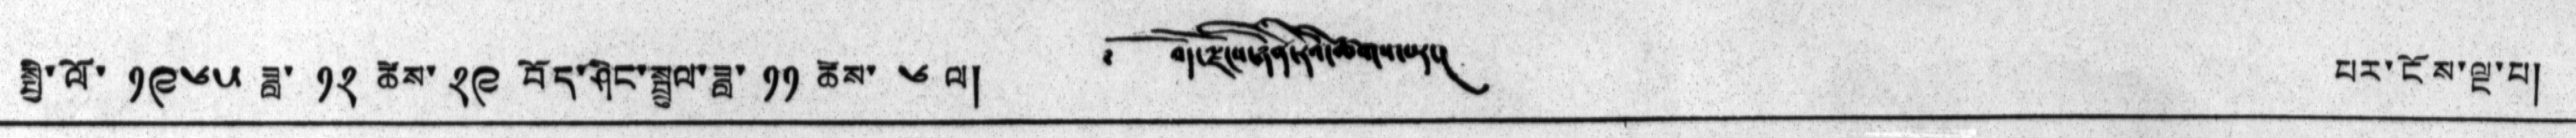སྤྱི་ལོ་ ༡༩༦༥ ཟླ་ ༡༢ ཚེས་ ༢༩ བོད་ཤིང་སྦྲུལ་ཟླ་ ༡༡ ཚེས་ ༦ ལ། ༄༅། བོད་ལྗོངས་ཉིན་རེའི་ཚགས་པར། པར་ངོས་ལྔ་པ།
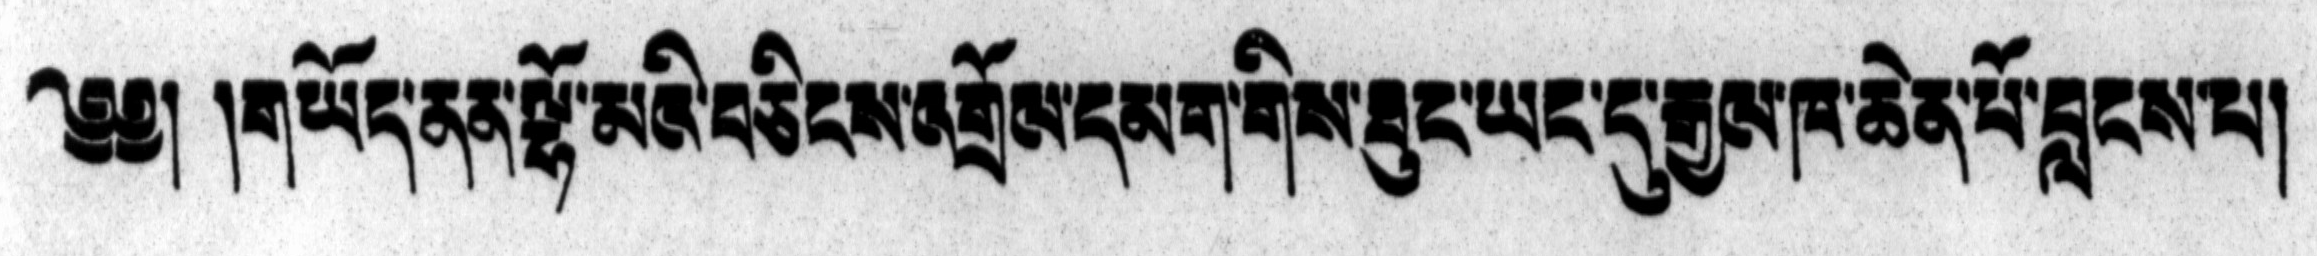༄༅། །གཡོད་ནན་ལྷོ་མའི་བཅིངས་འགྲོལ་དམག་གིས་ཐུང་ཡང་དུ་རྒྱས་ཁ་ཆེན་པོ་བླངས་པ།
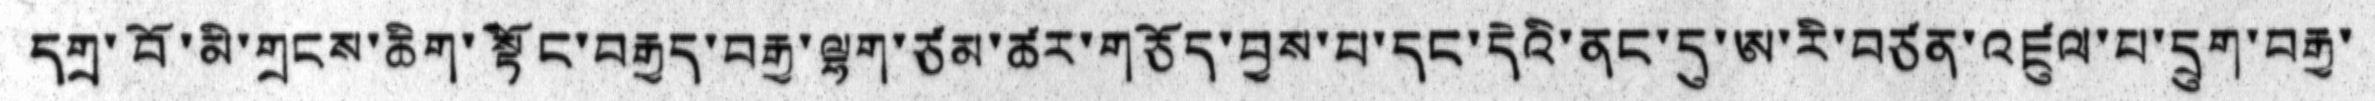དགྲ་བོ་མི་གྲངས་ཆིག་སྟོང་བརྒྱད་བརྒྱ་ལྷག་ཙམ་ཚར་གཅོད་བྱས་པ་དང་དེའི་ནང་དུ་ཨ་རི་བཙན་འཛུལ་པ་དྲུག་བརྒྱ་
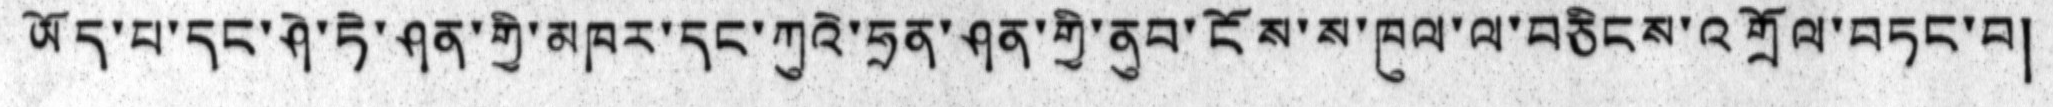ཡོད་པ་དང་ཤེ་ཏེ་ཤན་གྱི་མཁར་དང་ཀུའེ་ཧྲན་ཤན་གྱི་ནུབ་ངོས་ས་ཁུལ་ལ་བཅིངས་འགྲོལ་བཏང་བ།
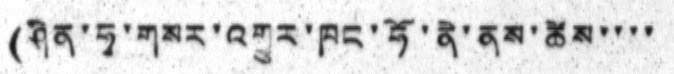(ཤིན་ཧྭ་གསར་འགྱུར་ཁང་ཧོ་ནེ་ནས་ཚེས་་་་
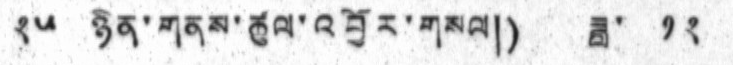༢༥ ཉིན་གནས་ཚུལ་འབྱོར་གསལ།) ཟླ་ ༡༢
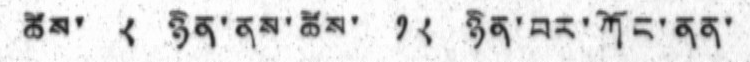ཚེས་ ༨ ཉིན་ནས་ཚེས་ ༡༨ ཉིན་བར་ཀོང་ནན་
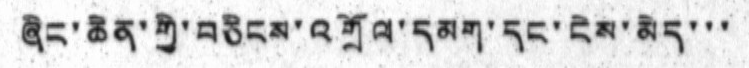ཞིང་ཆེན་གྱི་བཅིངས་འགྲོལ་དམག་དང་ངེས་མེད་་་
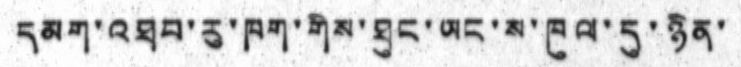དམག་འཐབ་རུ་ཁག་གིས་ཐུང་ཡང་ས་ཁུལ་དུ་ཉིན་
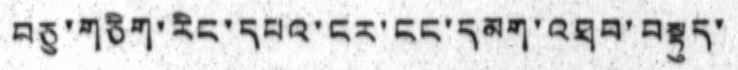བཅུ་གཅིག་རིང་དཔའ་ངར་ངང་དམག་འཐབ་བསྟུད་
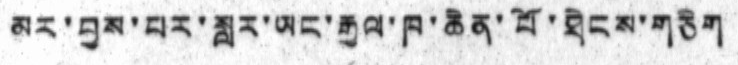མར་བྱས་པར་སླར་ཡང་རྒྱལ་ཁ་ཆེན་པོ་ཐེངས་གཅིག
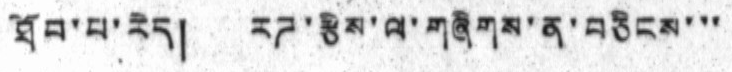ཐོབ་པ་རེད། རཌ་རྩིས་ལ་གཞིགས་ན་བཅིངས་་་
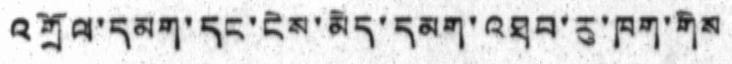འགྲོལ་དམག་དང་ངེས་མེད་དམག་འཐབ་རུ་ཁག་གིས
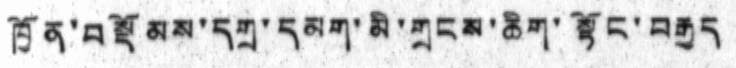ཁྱོན་བསྡོམས་དགྲ་དམག་མི་གྲངས་ཆིག་སྟོང་བརྒྱད
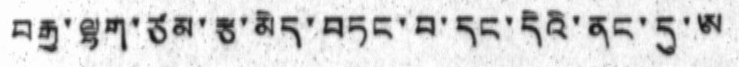བརྒྱ་ལྷག་ཙམ་རྩ་མེད་བཏང་བ་དང་དེའི་ནང་དུ་ཨ
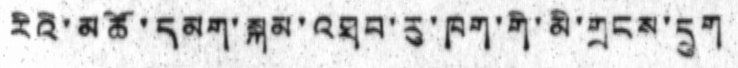རིའི་མཚོ་དམག་སྐམ་འཐབ་རུ་ཁག་གི་མི་གྲངས་དྲུག
